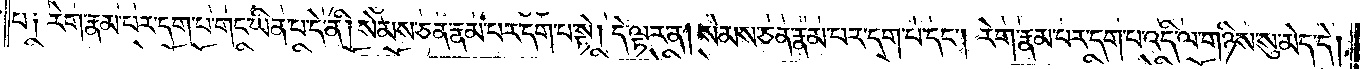པ༑ རེག་རྣམ་པར་དག་པ་གང་ཡིན་པ་དེ་ནི། སེམས་ཅན་རྣམ་པར་དག་པ་སྟེ། དེ་ལྟར་ན། སེམས་ཅན་རྣམ་པར་དག་པ་དང༌། རེག་རྣམ་པར་དག་པ་འདི་ལ་གཉིས་སུ་མེད་དེ།
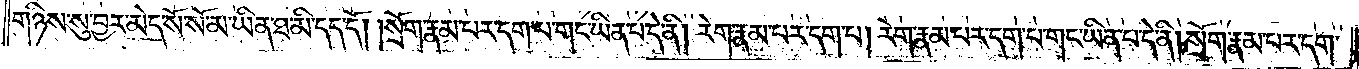གཉིས་སུ་བྱར་མེད་སོ་སོ་མ་ཡིན་ཐ་མི་དད་དོ། །སྲོག་རྣམ་པར་དག་པ་གང་ཡིན་པ་དེ་ནི། རེག་རྣམ་པར་དག་པ། རེག་རྣམ་པར་དག་པ་གང་ཡིན་པ་དེ་ནི། སྲོག་རྣམ་པར་དག་
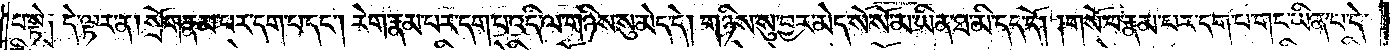པ་སྟེ༑ དེ་ལྟར་ན། སྲོག་རྣམ་པར་དག་པ་དང༌། རེག་རྣམ་པར་དག་པ་འདི་ལ་གཉིས་སུ་མེད་དེ། གཉིས་སུ་བྱར་མེད་སོ་སོ་མ་ཡིན་ཐ་མི་དད་དོ། །གསོ་བ་རྣམ་པར་དག་པ་གང་ཡིན་པ་དེ།
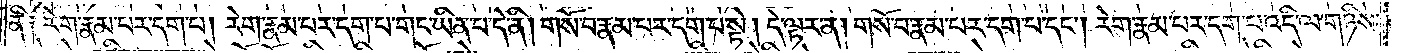ནི༑ རེག་རྣམ་པར་དག་པ། རེག་རྣམ་པར་དག་པ་གང་ཡིན་པ་དེ་ནི། གསོ་བ་རྣམ་པར་དག་པ་སྟེ། དེ་ལྟར་ན། གསོ་བ་རྣམ་པར་དག་པ་དང༌། རེག་རྣམ་པར་དག་པ་འདི་ལ་གཉིས་
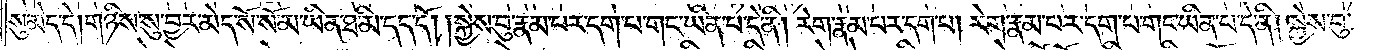སུ་མེད་དེ། གཉིས་སུ་བྱར་མེད་སོ་སོ་མ་ཡིན་ཐ་མི་དད་དོ། །སྐྱེས་བུ་རྣམ་པར་དག་པ་གང་ཡིན་པ་དེ་ནི། རེག་རྣམ་པར་དག་པ། རེག་རྣམ་པར་དག་པ་གང་ཡིན་པ་དེ་ནི། སྐྱེས་བུ་
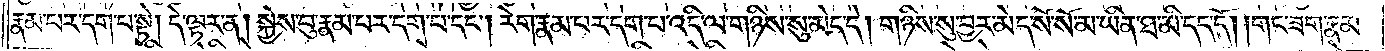རྣམ་པར་དག་པ་སྟེ། དེ་ལྟར་ན། སྐྱེས་བུ་རྣམ་པར་དག་པ་དང༌། རེག་རྣམ་པར་དག་པ་འདི་ལ་གཉིས་སུ་མེད་དེ། གཉིས་སུ་བྱར་མེད་སོ་སོ་མ་ཡིན་ཐ་མི་དད་དོ། །གང་ཟག་རྣམ་
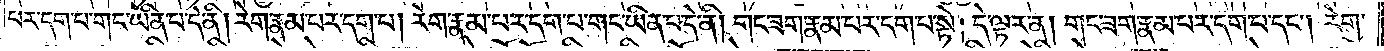པར་དག་པ་གང་ཡིན་པ་དེ་ནི། རེག་རྣམ་པར་དག་པ། རེག་རྣམ་པར་དག་པ་གང་ཡིན་པ་དེ་ནི། གང་ཟག་རྣམ་པར་དག་པ་སྟེ། དེ་ལྟར་ན། གང་ཟག་རྣམ་པར་དག་པ་དང༌། རེག་
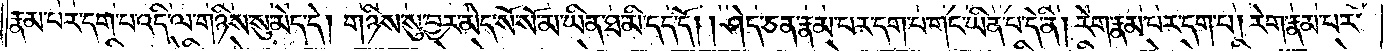རྣམ་པར་དག་པ་འདི་ལ་གཉིས་སུ་མེད་དེ། གཉིས་སུ་བྱར་མེད་སོ་སོ་མ་ཡིན་ཐ་མི་དད་དོ། །ཤེད་ཅན་རྣམ་པར་དག་པ་གང་ཡིན་པ་དེ་ནི། རེག་རྣམ་པར་དག་པ། རེག་རྣམ་པར་
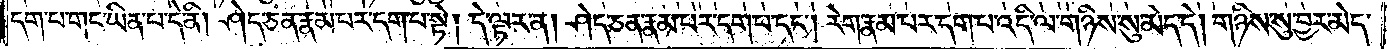དག་པ་གང་ཡིན་པ་དེ་ནི། ཤེད་ཅན་རྣམ་པར་དག་པ་སྟེ། དེ་ལྟར་ན། ཤེད་ཅན་རྣམ་པར་དག་པ་དང༌། རེག་རྣམ་པར་དག་པ་འདི་ལ་གཉིས་སུ་མེད་དེ། གཉིས་སུ་བྱར་མེད་
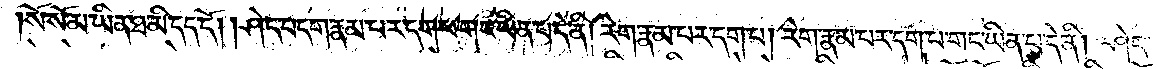སོ་སོ་མ་ཡིན་ཐ་མི་དད་དོ། །ཤེད་བདག་རྣམ་པར་དག་པ་གང་ཡིན་པ་དེ་ནི། རེག་རྣམ་པར་དག་པ། རེག་རྣམ་པར་དག་པ་གང་ཡིན་པ་དེ་ནི། ཤེད་
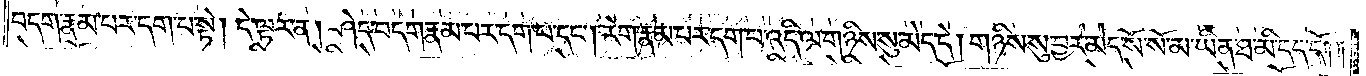བདག་རྣམ་པར་དག་པ་སྟེ། དེ་ལྟར་ན། ཤེད་བདག་རྣམ་པར་དག་པ་དང༌། རེག་རྣམ་པར་དག་པ་འདི་ལ་གཉིས་སུ་མེད་དེ། གཉིས་སུ་བྱར་མེད་སོ་སོ་མ་ཡིན་ཐ་མི་དད་དོ། །
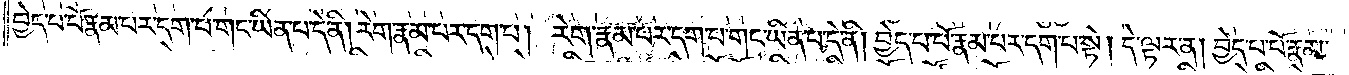བྱེད་པ་པོ་རྣམ་པར་དག་པ་གང་ཡིན་པ་དེ་ནི། རེག་རྣམ་པར་དག་པ། རེག་རྣམ་པར་དག་པ་གང་ཡིན་པ་དེ་ནི། བྱེད་པ་པོ་རྣམ་པར་དག་པ་སྟེ། དེ་ལྟར་ན། བྱེད་པ་པོ་རྣམ་
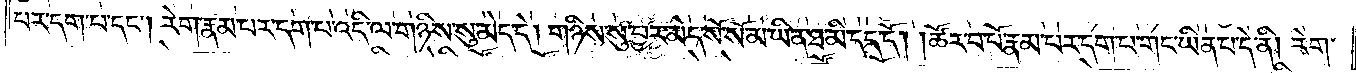པར་དག་པ་དང༌། རེག་རྣམ་པར་དག་པ་འདི་ལ་གཉིས་སུ་མེད་དེ། གཉིས་སུ་བྱར་མེད་སོ་སོ་མ་ཡིན་ཐ་མི་དད་དོ། །ཚོར་བ་པོ་རྣམ་པར་དག་པ་གང་ཡིན་པ་དེ་ནི། རེག་
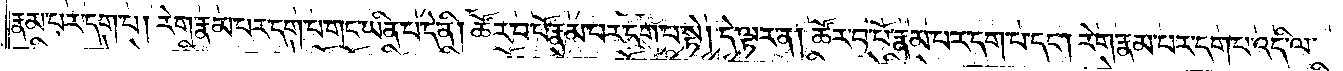རྣམ་པར་དག་པ། རེག་རྣམ་པར་དག་པ་གང་ཡིན་པ་དེ་ནི། ཚོར་བ་པོ་རྣམ་པར་དག་པ་སྟེ། དེ་ལྟར་ན། ཚོར་བ་པོ་རྣམ་པར་དག་པ་དང༌། རེག་རྣམ་པར་དག་པ་འདི་ལ་
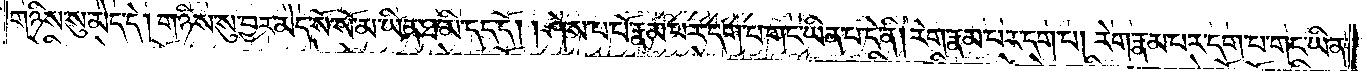གཉིས་སུ་མེད་དེ། གཉིས་སུ་བྱར་མེད་སོ་སོ་མ་ཡིན་ཐ་མི་དད་དོ། །ཤེས་པ་པོ་རྣམ་པར་དག་པ་གང་ཡིན་པ་དེ་ནི། རེག་རྣམ་པར་དག་པ། རེག་རྣམ་པར་དག་པ་གང་ཡིན་
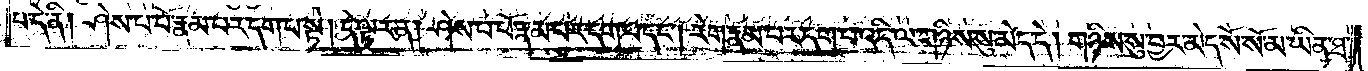པ་དེ་ནི། ཤེས་པ་པོ་རྣམ་པར་དག་པ་སྟེ། དེ་ལྟར་ན། ཤེས་པ་པོ་རྣམ་པར་དག་པ་དང༌། རེག་རྣམ་པར་དག་པ་འདི་ལ་གཉིས་སུ་མེད་དེ། གཉིས་སུ་བྱར་མེད་སོ་སོ་མ་ཡིན་ཐ་
